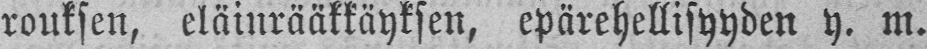rouksen, eläinrääkkäyksen, epärehellisyyden y. m.
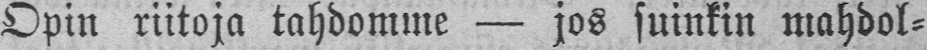Opin riitoja tahdomme — jos suinkin mahdol-
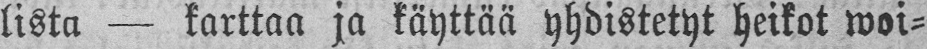lista — karttaa ja käyttää yhdistetyt heikot woi-
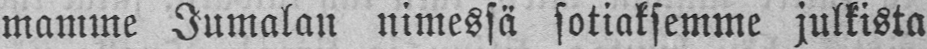mamme Jumalan nimessä sotiaksemme julkista
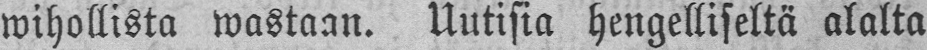wihollista wastaan. Uutisia hengelliseltä alalta
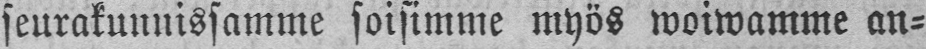seurakunnissamme soisimme myös woiwamme an-
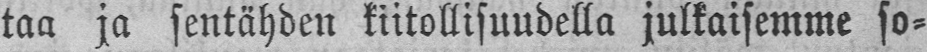taa ja sentähden kiitollisuudella julkaisemme so-
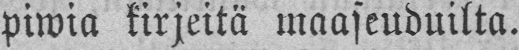piwia kirjeitä maaseuduilta.
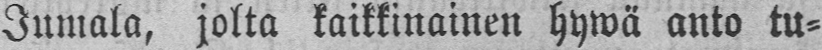Jumala, jolta kaikkinainen hywä anto tu-
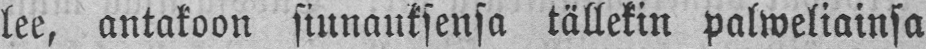lee, antakoon siunauksensa tällekin palweliainsa
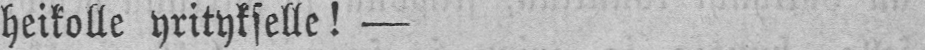heikolle yritykselle! —
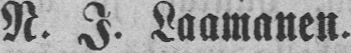N. I. Laamanen.
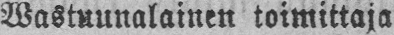Wastuunalainen toimittaja.
